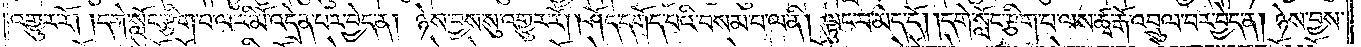འགྱུར་རོ། །དགེ་སློང་རྩིག་པ་ལ་རི་མོ་འདྲེན་པར་བྱེད་ན། ཉེས་བྱས་སུ་འགྱུར་རོ། །ཤོད་དགོད་པའི་བསམ་པ་ལ་ནི། ལྟུང་བ་མེད་དོ། །དགེ་སློང་རྩིག་པ་ལས་ཚྭ་རྒོ་འབྲུལ་བར་བྱེད་ན། ཉེས་བྱས་
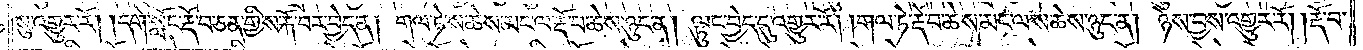སུ་འགྱུར་རོ། །དགེ་སློང་རྡོ་བ་ཅན་གྱི་ས་རྐོ་བར་བྱེད་ན། གལ་ཏེ་ས་ཆེས་མང་ལ་རྡོ་བ་ཆེས་ཉུང་ན། ལྟུང་བྱེད་དུ་འགྱུར་རོ། །གལ་ཏེ་རྡོ་བ་ཆེས་མང་ལ་ས་ཆེས་ཉུང་ན། ཉེས་བྱས་འགྱུར་རོ། །རྡོ་བ་
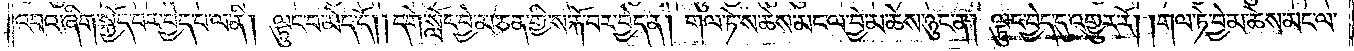འབའ་ཞིག་སྐྱོད་པར་བྱེད་པ་ལ་ནི། ལྟུང་བ་མེད་དོ། །དགེ་སློང་བྱེ་མ་ཅན་གྱི་ས་རྐོ་བར་བྱེད་ན། གལ་ཏེ་ས་ཆེས་མང་ལ་བྱེ་མ་ཆེས་ཉུང་ན། ལྟུང་བྱེད་དུ་འགྱུར་རོ། །གལ་ཏེ་བྱེ་མ་ཆེས་མང་ལ་
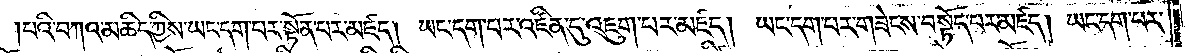པའི་བཀའ་མཆིད་ཀྱིས་ཡང་དག་པར་སྟོན་པར་མཛད། ཡང་དག་པར་འཛིན་དུ་འཇུག་པར་མཛད། ཡང་དག་པར་གཟེངས་བསྟོད་པར་མཛད། ཡང་དག་པར་
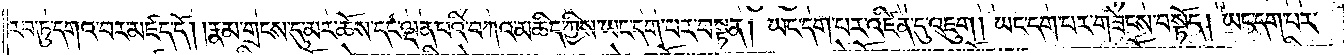རབ་ཏུ་དགའ་བར་མཛད་དོ། །རྣམ་གྲངས་དུ་མར་ཆོས་དང་ལྡན་པའི་བཀའ་མཆིད་ཀྱིས་ཡང་དག་པར་བསྟན། ཡང་དག་པར་འཛིན་དུ་འཇུག །ཡང་དག་པར་གཟེངས་བསྟོད། ཡང་དག་པར་
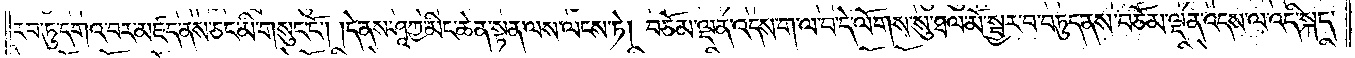རབ་ཏུ་དགའ་བར་མཛད་ནས་ཅང་མི་གསུང་ངོ༌། །དེ་ནས་ཤཱཀྱ་མིང་ཆེན་སྟན་ལས་ལངས་ཏེ། བཅོམ་ལྡན་འདས་ག་ལ་བ་དེ་ལོགས་སུ་ཐལ་མོ་སྦྱར་བ་བཏུད་ནས་བཅོམ་ལྡན་འདས་ལ་འདི་སྐད་
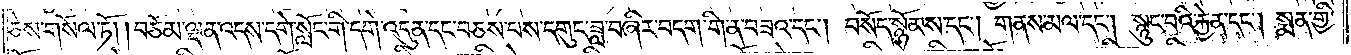ཅེས་གསོལ་ཏོ། །བཅོམ་ལྡན་འདས་དགེ་སློང་གི་དགེ་འདུན་དང་བཅས་པས་དགུང་ཟླ་བཞིར་བདག་གི་ན་བཟའ་དང༌། བསོད་སྙོམས་དང༌། གནས་མལ་དང༌། སྙུང་བའི་རྐྱེན་དང༌། སྨན་གྱི་
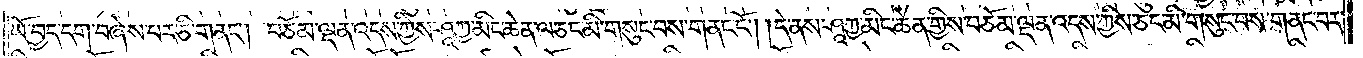ཡོ་བྱད་དག་བཞེས་པར་ཅི་གནང༌། བཅོམ་ལྡན་འདས་ཀྱིས་ཤཱཀྱ་མིང་ཆེན་ལ་ཅང་མི་གསུང་བས་གནང་ངོ༌། །དེ་ནས་ཤཱཀྱ་མིང་ཆེན་གྱིས་བཅོམ་ལྡན་འདས་ཀྱིས་ཅང་མི་གསུང་བས་གནང་བར་
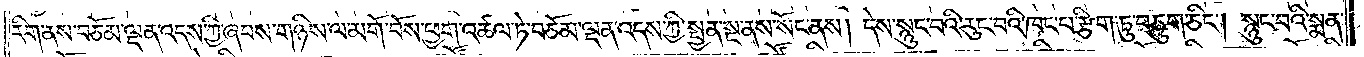རིག་ནས་བཅོམ་ལྡན་འདས་ཀྱི་ཞབས་གཉིས་ལ་མགོ་བོས་ཕྱག་འཚལ་ཏེ་བཅོམ་ལྡན་འདས་ཀྱི་སྤྱན་སྔ་ནས་སོང་ནས། དེས་སྙུང་བའི་རུང་བའི་ཁང་པ་རྩིག་ཏུ་བཅུག་ཅིང༌། སྙུང་བའི་སྨན་
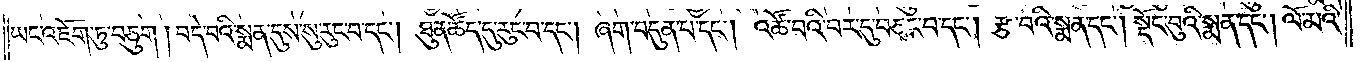ཡང་འཇོག་ཏུ་བཅུག །བདེ་བའི་སྨན་དུས་སུ་རུང་བ་དང༌། ཐུན་ཚོད་དུ་རུང་བ་དང༌། ཞག་བདུན་པ་དང༌། འཚོ་བའི་བར་དུ་བཅང་བ་དང༌། རྩ་བའི་སྨན་དང༌། སྡོང་བུའི་སྨན་དང༌། ལོ་མའི་
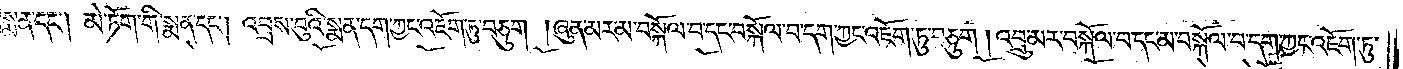སྨན་དང༌། མེ་ཏོག་གི་སྨན་དང༌། འབྲས་བུའི་སྨན་དག་ཀྱང་འཇོག་ཏུ་བཅུག །ཞུན་མར་མ་བསྐོལ་བ་དང་བསྐོལ་བ་དག་ཀྱང་འཇོག་ཏུ་བཅུག །འབྲུ་མར་བསྐོལ་བ་དང་མ་བསྐོལ་བ་དག་ཀྱང་འཇོག་ཏུ་
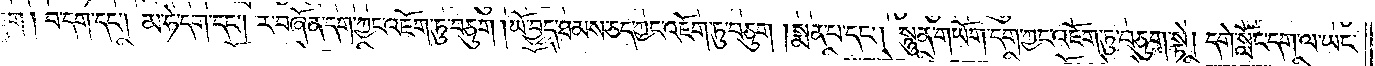བཅུག །བ་དག་དང༌། མ་ཧེ་དག་དང༌། ར་བཞོན་དག་ཀྱང་འཇོག་ཏུ་བཅུག །ཡོ་བྱད་ཐམས་ཅད་ཀྱང་འཇོག་ཏུ་བཅུག །སྨན་པ་དང༌། སྙུན་གཡོག་དག་ཀྱང་འཇོག་ཏུ་བཅུག་སྟེ། དགེ་སློང་དག་ལ་ཡང་
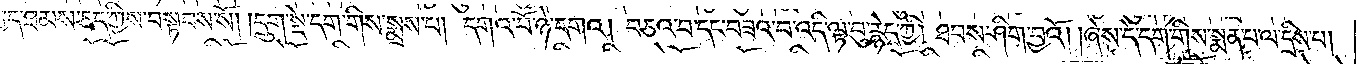བྱད་ཐམས་ཅད་ཀྱིས་བསྟབས་སོ། །དྲུག་སྡེ་དག་གིས་སྨྲས་པ། དགའ་བོ་ཉེ་དགའ། བཅའ་བ་དང་བཟའ་བ་འདི་ལྟ་བུ་རྙེད་ཀྱི། ཐབས་ཤིག་བྱའོ། །ཞེས་དེ་དག་གིས་སྨན་པ་ལ་དྲིས་པ།
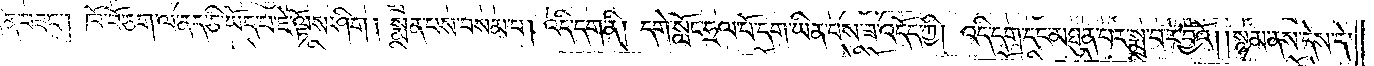བཞིན་བཟང༌། ཁོ་བོ་ཅག་ལ་ནད་ཅི་ཡོད་པ་ཇེ་ལྟོས་ཤིག །སྨན་པས་བསམ་པ། འདི་དག་ནི། དགེ་སློང་ཧྲལ་པོ་དག་ཡིན་པས་ཟ་འདོད་ཀྱི། འདི་དག་དང་མཐུན་པར་སྨྲ་བར་བྱའོ། །སྙམ་ནས་དེས་དེ་
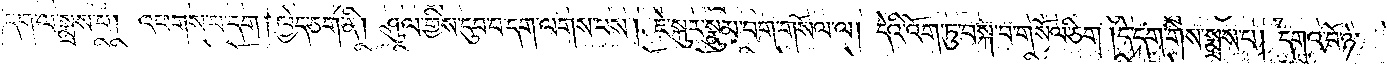དག་ལ་སྨྲས་པ། འཕགས་པ་དག །ཁྱེད་ཅག་ནི། ཤུལ་གྱིས་དུབ་པ་དག་ལགས་པས། ཇེ་སྐུར་སྣུམ་བག་གསོལ་ལ། དེའི་འོག་ཏུ་བསྐ་བ་གསོལ་ཅིག །དེ་དག་གིས་སྨྲས་པ། དགའ་བོ་ཉེ་
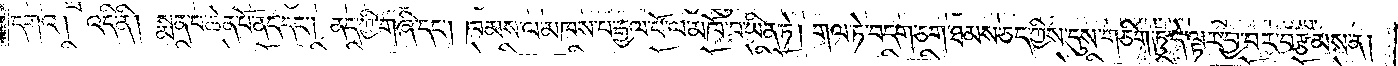དགའ། འདི་ནི། སྨན་པ་ཆེན་པོ་ནད་དང༌། ནད་ཀྱི་གཞི་དང༌། ཁམས་ལ་མཁས་པ་རྒྱལ་པོ་ལ་མཁོ་བ་ཡིན་ཏེ། གལ་ཏེ་བདག་ཅག་ཐམས་ཅད་ཀྱིས་དུས་གཅིག་ཏུ་དེ་ལྟར་བྱ་བར་བརྩམས་ན།
